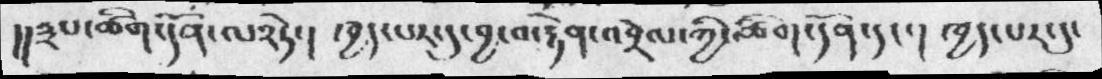།།༣པ་ཚིག་དོན་ལ༢་ཏེ་།  ཁྱད་པར་དུ་བྱ་བ་རྙེན་འབྲེལ་ཀྱི་ཚིག་དོན་དང་།  ཁྱད་པར་དུ་
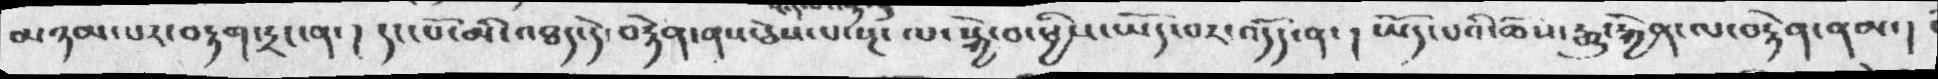མཉམ་པར་བརྟག་ཏྲང་ན་།  དང་པོ་མི་འཐད་དེ་བརྟེན་ནས་ཅེས་པ་སྔ་ལ་སྐྱེ་བ་ཕྱིས་ཡོད་པར་འདོད་ན་།  ཡོད་པའི་ཆོས་རྒྱུ་རྐྱེན་ལ་བརྟེན་ནམ་།
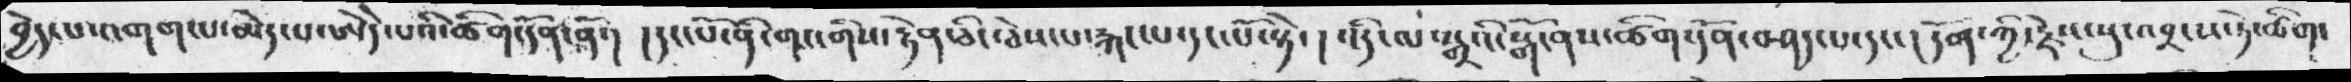བྱེད་པ་འགག་པ་མེད་པ་ཨེདེ་པའི་ཚིག་དོན་ནོ། །དང་པོ་ནི་གང་གིས་རྟེན་ཅིང་ཅེས་པ་རྐང་པ་དང་པོ་སྟེ། འདི་མ་སྒྲའི་སྒོ་ནས་ཚིག་དོན་བཤད་པ་དང་། དོན་ཀྱི་རྗེས་སུ་འབྲངས་ཏེ་ཚིག་
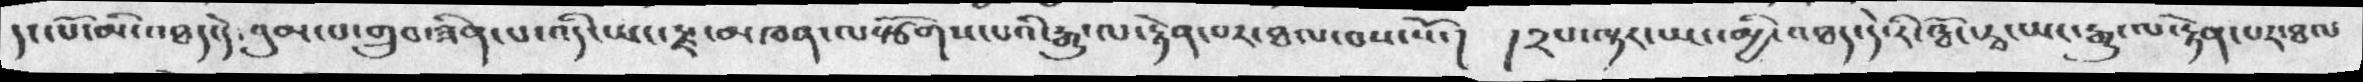དང་པོ་མི་འཐད་དེ་བུམ་པ་གྲུབ་ཟིན་པ་འདི་ཡང་རྫ་མཁན་ལ་སྩོགས་པའི་རྒྱུ་ལ་རྟེན་པར་ཐལ་བས་སོ་། །༢པ་ལྟར་ཡང་མྱི་འཐད་དེ་རིང་ཝྦོང་རྭ་ཡང་རྒྱུ་ལ་རྟེན་པར་ཐལ་
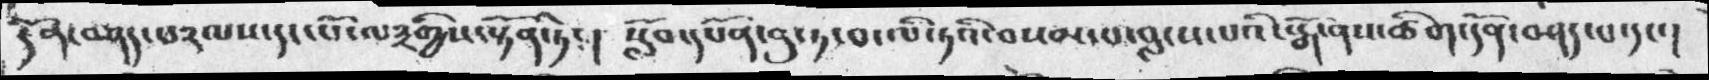དོན་བཤད་པ༢ལས་དང་པོ་ལ༣་གྱིས་སྟོན་ཏེ་ ། སློབ་དཔོན་བུ་ཏ་པ་ལི་ཏའི་བསམ་པ་བླངས་པའི་སྒོ་ནས་ཚིག་དོན་བཤད་པ་དང་།
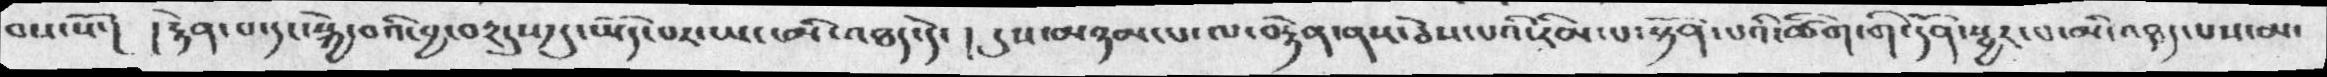བས་སོ་། །རྟེན་པ་དང་སྐྱེ་བའི་བྱ་བར་དུས་སུ་ཡོད་པར་ཡང་མི་འཐད་དེ། དུས་མཉམ་པ་ལ་བརྟེན་ནས་ཅེས་པའི་རིམ་པ་སྟོན་པའི་ཚིག་གི་དོན་སྦྱར་བ་མི་འཐད་པར་མ་
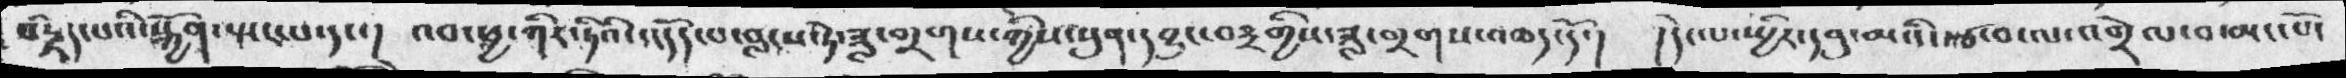བརྗོད་པའི་སྐྱོན་སྤང་པ་དང་།  འབ་ཕྱ་ཀིར་ཏིའི་འདོད་པ་བླངས་ཏེ་ཟླ་གྲགས་ཀྱིས་སུན་དབྱུང་བར་གྱིས་ཟླ་གྲགས་འཆད་དོ་།  །དེ་ལ་སྤྱིར་དབུ་མའི་སྩ་བ་ལ་འགྲེལ་བ་མང་པོ་
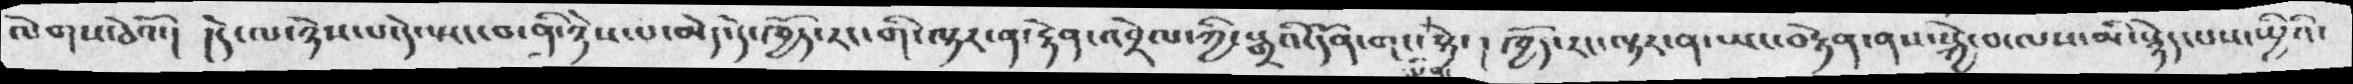ལེགས་ཅེའོ་།  ། དེ་ལ་ཉེས་པ་དེ་སྤང་བ་ནི་ཉེས་པ་མེད་དེ་ཁྱོད་རང་གི་ལྟར་ན་རྟེན་འབྲེལ་ཀྱི་སྒྲའི་དོན་གང་སྟེ་།  ཁྱོད་རང་ལྟང་ན་སྤང་བརྟེན་ནས་སྐྱེབ་ལས་མི་སྙེད་པས་སྤྱིའི་
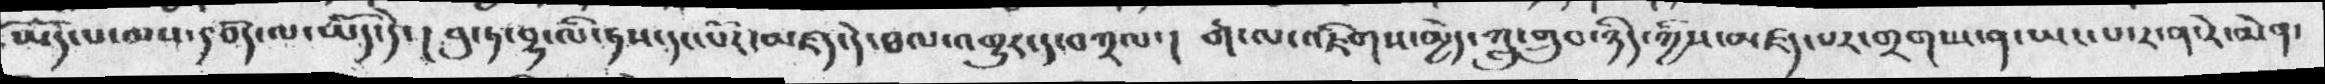ཡོད་པ་མས་དཅོད་ལ་ཡོད་དེ་།  བུ་ཏ་བྷ་ལི་ཏས་དང་པར་མཛད་དེ་ཐལ་འགྱུར་དུ་བཀྲལ་།  ག་ལ་འཇིགས་མྱེད་ཀླུ་གྲུབ་ཉིད་ཀྱིས་མཛད་པར་གྲགས་ན་ཡང་པ་ར་ན་རེ་མེན་
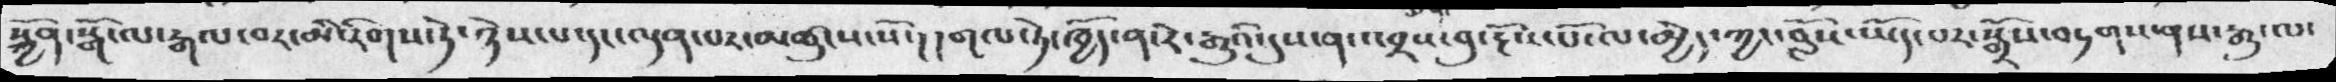སྐྱོན་སྒོ་ལ་རྒལ་བར་མི་རིགས་ཏེ་ཉེས་པ་དང་ལྡན་པར་མཚུངས་སོ་།  །གལ་ཏེ་ཁྱོད་ན་རེ་རྒྱུའི་དུས་ན་འབྲས་བུ་དངོས་པོ་ལ་མྱེད་ཀྱང་བློས་ཡོད་པར་སྒྲོས་བཏགས་ནས་རྒྱུ་ལ་
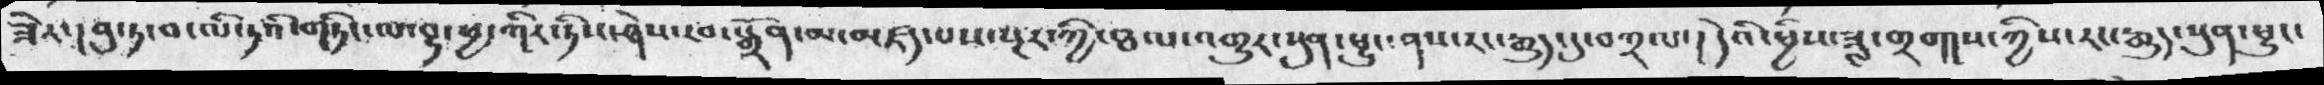ཟེར་དབུ་ཏ་བ་ལི་ཏའི་གརིང་ལ་བྷ་ཕྱ་ཀིར་ཏིས་ཤེས་རབ་སྒྲོན་མ་མཛད་པས་སྔར་ཀྱི་ཐལ་འགྱུར་སུན་ཕྱུང་ནས་རང་རྒྱུད་དུ་བཀྲལ་།  དེའི་ཕྱིས་ཟླ་གྲག།ས་ཀྱིས་རང་རྒྱུད་སུན་ཕྱུང་
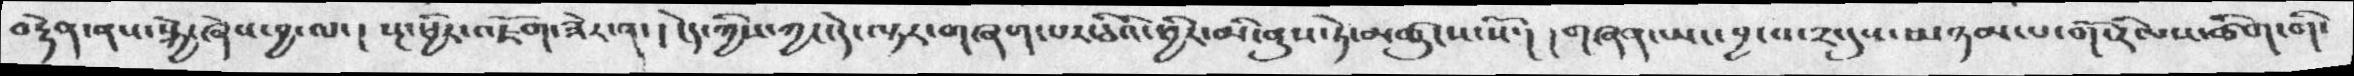བརྟེན་ནས་སྐྱེ་ཞེས་བྱ་ལ་། སྔ་ཕྱིར་འཇོག་ཟེར་ན་། ངེད་ཀྱིས་ཀྱང་དེ་ལྟར་གཞག་པར་ཅིའི་ཕྱིར་མི་ནུས་ཏེ་མཚུངས་སོ་། །གཞན་ཡང་བྱ་བ་༢་དུས་མཉམ་པ་གོ་རིམས་ཚིག་གི་
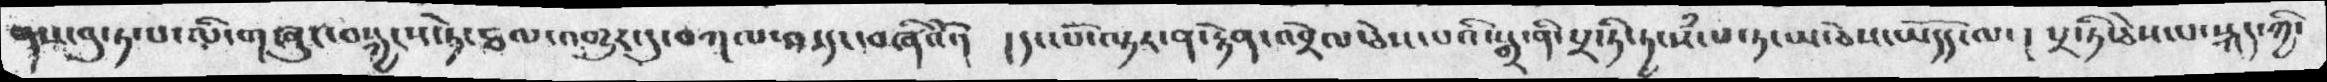ནས་བུ་ཏ་པ་ལི་གཞུང་བསྐྱངས་ཏེ་ཐལ་འགྱུར་དུ་བཀལ་བ་དང་བཞིའོ་།  །དང་པོ་ལྟར་ན་རྟེན་འབྲེལ་ཅེས་པའི་སྒྲ་ནི་པྲ་ཏི་ཏ་སཾ་པ་ཏ་ཡ་ཅེས་ཡོདད་ལ་།  པྲ་ཏི་ཅེས་པ་སྐད་ཀྱི་
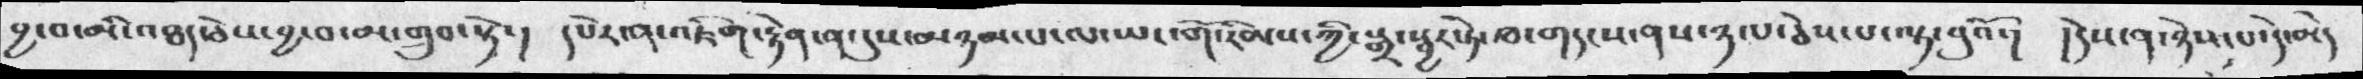བྱ་བ་མི་འཐད་ཅེས་བྱ་བ་མ་གྲུབ་སྟེ་།  དཔེར་ན་འཇིག་རྟེན་ན་དུས་མཉམ་པ་ལ་ཡང་གོ་རིམས་ཀྱི་སྒྲ་སྦྱར་ཏེ་ཁ་གདངས་ནས་ཉ་པ་ཅེས་པ་ལྟ་བུའོ་།  །དེས་ན་ཉེས་པ་དེ་མེད
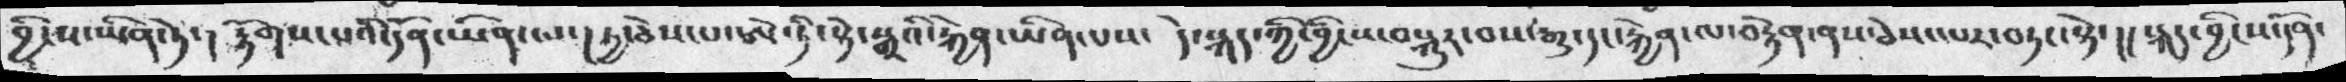བྱིངས་ཡིན་ཏེ་།  རྟོགས་པའི་དོན་ཡིན་ཡ་།ཏྱ་ཅེས་པ་ཨེ་ཏི་སྟེ་སྒྲའི་རྐྱེན་ཡིན་པས་ དེ་སྐད་ཀྱི་བྱིངས་བསྐུར་བས་རྒྱུ་དང་རྐྱེན་ལ་བརྟེན་ནས་ཅེས་དཔར་བཏང་སྟེ་།།  སྐད་བྱིངས་དོན་
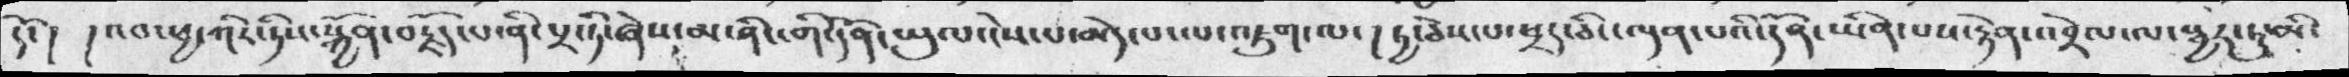དོ་། །འབ་ཕྱ་ཀིར་ཏིས་སྐྱོན་བརྗོད་པ་ནི་སྲ་ཏི་ཞེས་མ་ཤིང་གི་དོན་ཡུལ་ངེས་པ་མེད་པ་ལ་འཇུག་ལ་། ཏྱ་ཅེས་པ་ཕྲད་ཅིང་ལྡན་པའི་དོན་ཡིན་པས་རྟེན་འབྲེལ་ལ་སྦྱར་ཏུ་མི་
